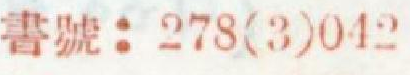書號：268(3)042
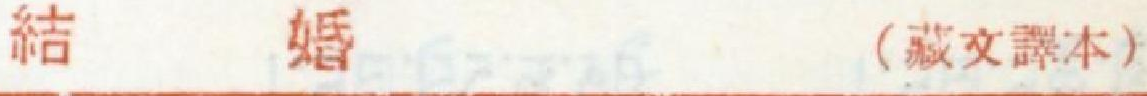結 婚 （藏文譯本）
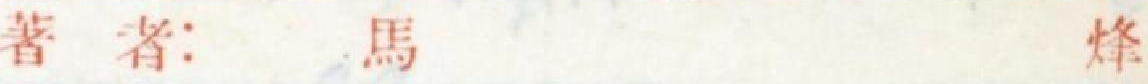著 者： 馬 烽
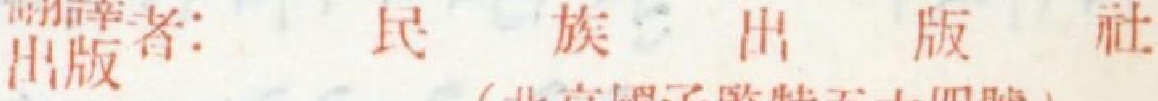出版者： 民 族 出 版 社
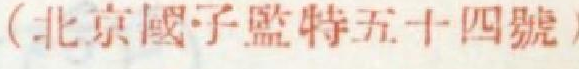（北京國子監特五十四號）
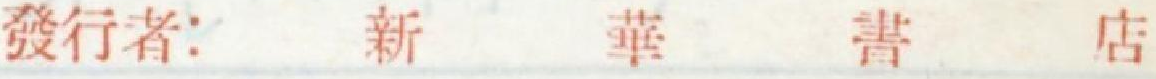發行者： 新 華 書 店
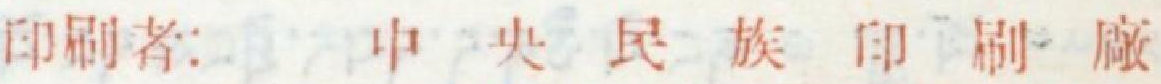印刷者： 中 央 民 族 印 刷 廠
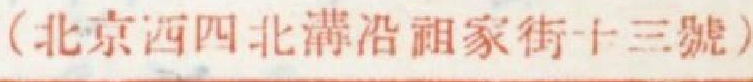（北京西四北溝沿祖家街十三號）
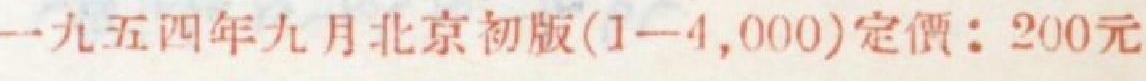一九五四年九月北京初版（1—4,000）定價：200元
